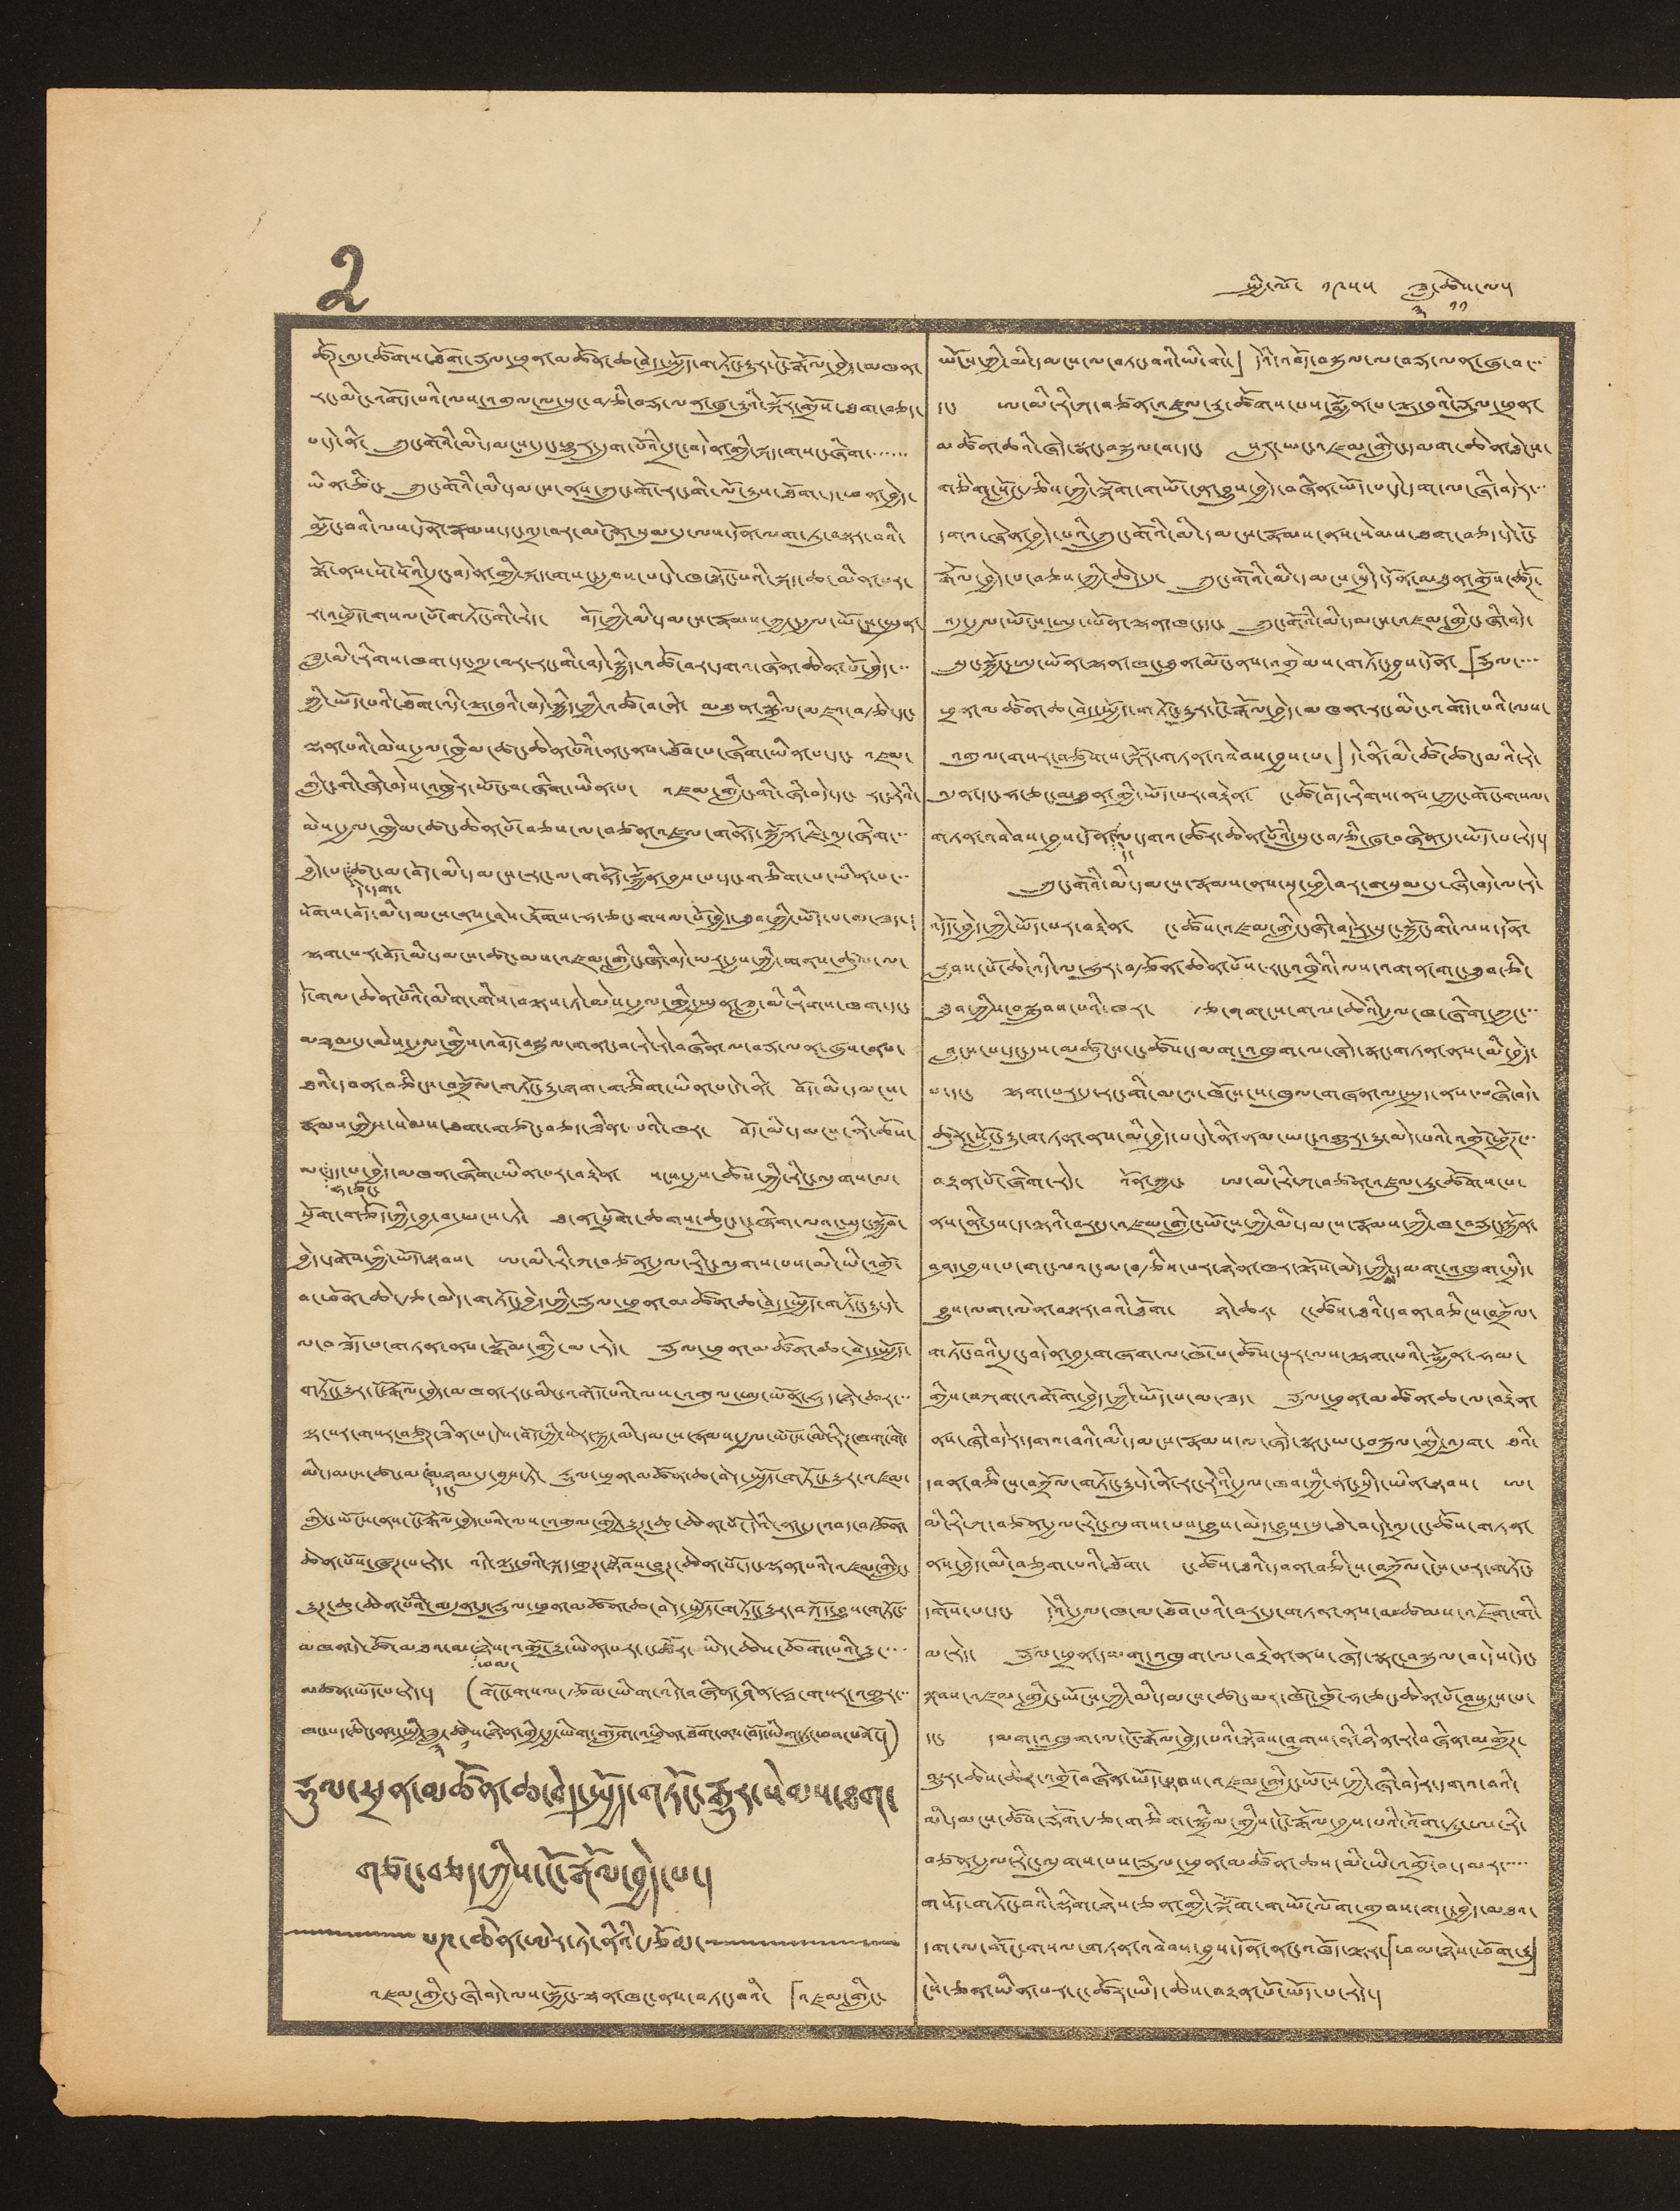2 སྤྱི་ལོ་ ༡༩༥༥ ཟླ་
༣
ཚེས་
༡༡
ལ་།
ཚོཊ་འདུ་ཚོགས་ཐོག་རྡུལ་ཕྲན་མཚོན་ཆ་བེད་སྤྱོད་གཏོང་རྒྱུར་ངོ་རྒོལ་བྱེད་མཁན་
རང་མིང་འགོད་པའི་ལས་འགུལ་ལ་སྲུང་བརྩི་བརྡ་ལན་ཞུ་རྒྱུའི་སྐོར་གྲོས་ཐག་བཅད་
པ་དེ་ནི་ ཀྲུང་གོའི་མི་དམངས་དུང་ཕྱུར་དྲུག་པོའི་དྲང་བདེན་གྱི་སྐད་གསང་ཞིག་་་་་་
ཡིན་ཅིང་ ཀྲུང་གོའི་མི་དམངས་ནས་ཀྲུང་གོ་རང་གི་ལོ་རྒྱུས་ཐོག་ད་ཕན་བྱེད་
མྱོང་བའི་ལས་དོན་རྣམས་དང་འདྲ་བར་མངོན་སུམ་དུ་ལས་དོན་ལག་ཏུ་བསྟར་བའི་
སྒོ་ནས་སོ་སོའི་དྲང་བདེན་གྱི་སྐད་གསང་རྒྱབས་པ་དེ་ཁ་སྟོང་པའི་སྐད་ཆ་མིན་པར་
ར་འཕྲོད་གསལ་པོ་གཏོང་གི་རེད་ བོད་ཀྱི་མི་དམངས་རྣམས་ཀྱང་རྒྱལ་ཡོངས་སྤུན་
ཟླ་མི་རིགས་ཁག་དང་འདྲ་བར་རང་གི་བདེ་སྐྱིད་འཚོ་བར་དགའ་ཞེན་ཆེན་པོ་བྱེད་་་
ཀྱི་ཡོད་པའི་ཐོག་འདི་ལྟ་བུའི་བདེ་སྐྱིད་ཀྱི་འཚོ་བ་ནི་ མཐུན་སྒྲིལ་མཛའ་བརྩེ་དང་
ལྡན་པའི་མེས་རྒྱལ་ཁྱིམ་ཚང་ཆེན་པོའི་ནང་ནས་ཐོབ་པ་ཞིག་ཡིན་པ་དང་ འཛམ་
གླིང་གི་ཞི་བདེས་འཁྱེར་ཡོང་བ་ཞིག་ཡིན་པ་ འཛམ་གླིང་གི་ཞི་བདེ་དང་ རང་རེའི་
མེས་རྒྱལ་ཁྱིམ་ཚང་ཆེན་པོ་བཅས་ལ་བཙན་འཛུལ་གནོད་སྐྱོན་ཇི་འདྲ་ཞིག་་་
བྱེད་པ་
དེ་དག་
ཚང་མ་བོད་མི་དམངས་རང་ལ་གནོད་སྐྱོན་བྱས་པ་དང་གཅིག་པ་ཡིན་པ་་་
སོགས་བོད་མི་དམངས་ནས་ཤེས་རྟོགས་ཧ་ཅང་གསལ་པོ་བྱེད་ཐུབ་ཀྱི་ཡོད་པ་མ་ཟད་།
ལྷག་པར་བོད་མི་དམངས་ཚང་མས་འཛམ་གླིང་ཞི་བདེ་ཡར་རྒྱས་ཀྱི་གནས་ཚུལ་ལ་
དོ་གལ་ཆེན་པོའི་མིག་གིས་བལྟས་ཏེ་མེས་རྒྱལ་གྱི་སྤུན་ཟླ་མི་རིགས་ཁག་དང་
མཉམ་དུ་མེས་རྒྱལ་གྱིས་འབོད་བསྐུལ་གནང་བ་རེ་རེ་བཞིན་ལ་བར་ལན་ཞུས་ནས་
ཐའི་དབན་བཅིངས་བཀྲོལ་གཏོང་རྒྱུ་ཉག་གཅིག་ཡིན་པ་དེ་ནི་ བོད་མི་དམངས་
རྣམས་ཀྱིས་སེམས་ཐག་གཙང་བཅད་ཟིན་པའི་ཁར་ བོད་མི་དམངས་ནི་ཆོས་
ལ་
ཧ་ཅང་
དད་པ་བྱེད་མཁན་ཞིག་ཡིན་པར་བརྟེན་ སངས་རྒྱས་ཆོས་ཀྱི་རིང་ལུགས་ལ་
སྲོག་གཅོད་ཀྱི་བྱ་བ་སྤངས་ཏེ་ ཐ་ན་སྲོག་ཆགས་ཆུང་ངུ་ཞིག་ལའང་སྲུང་སྐྱོབ་
བྱེད་དགོས་ཀྱི་ཡོད་སྟབས་ ཨ་མི་རི་ཀ་བཙན་རྒྱལ་རིང་ལུགས་པས་མི་ཡི་འགྲོ་
བ་ཕོན་ཆེ་རྩ་མེད་གཏོང་བྱེད་ཀྱི་རྡུལ་ཕྲན་མཚོན་ཆ་བེད་སྤྱོད་གཏོང་རྒྱུ་དེ་
ལ་བཟོད་པ་གཏན་ནས་སྒོམ་གྱི་མ་རེད་ རྡུལ་ཕྲན་མཚོན་ཆ་བེད་སྤྱོད་
གཏོང་རྒྱུར་ངོ་རྒོལ་བྱེད་མཁན་རང་མིང་འགོད་པའི་ལས་འགུལ་ཨུ་ཡོན་ཧུད་ཉེ་ཆར་་་
ལྷ་སར་གསར་བཙུཊ་ཟིན་པ་དེས་བོད་ཀྱི་སེར་སྐྱ་མི་དམངས་རྣམས་རྒྱལ་ཡོངས་མི་རིཊ་ཁག་གི་
མི་དམངས་ཚང་མ་
དང་
མཉམ་དུ་བྱས་ཏེ་ རྡུལ་ཕྲན་མཚོན་ཆ་བེད་སྤྱོད་གཏོང་རྒྱུར་འཛམ་
གླིང་ཡོངས་ནས་ངོ་རྒོལ་བྱེད་པའི་ལས་འགུལ་གྱི་རྒྱུཊ་ཆུ་ཆེན་པོ་དེའི་ནང་དུ་འབད་བརྩོན་
ཆེན་པོས་ཞུཊ་པ་རེད་ འདི་ལྟ་བུའི་སྐད་གྲཊ་སྟོབས་ཤུཊ་ཆེན་པོ་དང་ལྡན་པའི་འཛམ་གླིང་
རྒྱུཊ་ཆུ་ཆེན་པོའི་མདུན་དུ་རྡུལ་ཕྲན་མཚོན་ཆ་བེད་སྤྱོད་གཏོང་རྒྱུར་བཀོད་བྱུས་གཏོང་་
མཁན་དེ་ཚོ་མཐའ་མ་
ཕལ་
ཉེས་འགྲོ་རྒྱུ་ཡིན་པར་ང་ཚོར་ཡིད་ཆེས་ཆོག་པའི་རྒྱུ་་་་
མཚན་ཡོད་པ་རེད་། ་(གོང་གསལ་རྩོམ་ཡིག་འདི་བཞིན་ཤིན་ཧྭ་གསར་འགྱུར་་་
ཁང་པད་ཅིང་ནས་སྤྱི་ཟླ་
༣
ཚེས་
༡
ཉིན་གྱི་རྒྱ་ཡིག་གློག་འཕྲིན་ཐོག་ནས་བོད་ཡིག་ཏུ་ཕབ་པའོ་།)
རྡུལ་ཕྲན་མཚོན་ཆ་བེད་སྤྱོད་གཏོང་རྒྱུར་སེམས་ཐག་
གཙང་བཅད་ཀྱིས་ངོ་རྒོལ་བྱེད་པ་།
པཎ་ཆེན་ཨེར་ཏེ་ནིའི་རྩོམ་
འཛམ་གླིང་ཞི་བདེ་ལས་སྐྱོང་ལྷན་ཁང་ནས་བཏང་བའི་ 「འཛམ་གླིང་
ཡོངས་ཀྱི་མི་དམངས་ལ་བཏང་བའི་ཡི་གེ་」 དེའི་འབོད་བསྐུལ་ལ་བརྡ་ལན་ཞུ་བ་་་
དང་ ཨ་མི་རི་ཀ་བཙན་འཛུལ་རུ་ཚོགས་པས་སྨྱོན་པ་ལྟ་བུའི་རྡུལ་ཕྲན་
མཚོན་ཆའི་ཞེད་སྣང་བསྐུལ་བ་དང་ སླར་ཡང་འཛམ་གླིང་དམག་ཆེན་ཐེངས་
གཅིག་སློང་རྩིས་ཀྱི་ལྐོག་གཡོ་ངན་བྱུས་བྱེད་བཞིན་ཡོད་པ་དེ་དག་ལ་ཞི་བདེར་་་
དགའ་ཞེན་བྱེད་པའི་ཀྲུང་གོའི་མི་དམངས་རྣམས་ནས་སེམས་ཐག་བཅད་དེ་ངོ་
རྒོལ་བྱེད་པ་བཅས་ཀྱི་ཆེད་དུ་ ཀྲུང་གོའི་མི་དམངས་སྲིད་དོན་མཐུན་གྲོས་ཚོཊ་
འདུ་རྒྱལ་ཡོངས་ཨུ་ཡོན་ལྷན་ཁང་དང་ ཀྲུང་གོའི་མི་དམངས་འཛམ་གླིང་ཞི་བདེ་
སྲུང་སྐྱོང་ཨུ་ཡོན་ལྷན་ཁང་ཐུན་མོང་ནས་འགྲེམས་གཏོང་བྱས་དོན་ 「རྡུལ་་་་
ཕྲན་མཚོན་ཆ་བེད་སྤྱོད་གཏོང་རྒྱུར་ངོ་རྒོལ་བྱེད་མཁན་རང་མིང་འགོད་པའི་ལས་
འགུལ་གསར་བཙུགས་སྐོར་གཏན་འབེབས་བྱས་པ་」 དེ་ནི་མི་ཚོ་ཚང་མའི་རེ་
འདུན་དང་ཧ་ཅང་མཐུན་གྱི་ཡོད་པར་བརྟེན་ ང་ཚོ་བོད་རིགས་ནས་ཀྱང་གོང་གསལ་
གཏན་འབེབས་བྱས་དོན་
དེ་
ལ་དགའ་ཚོར་ཆེན་པོའི་སྲུང་བརྩི་ཞུ་བཞིན་དུ་ཡོད་པ་རེད་།
ཀྲུང་གོའི་མི་དམངས་རྣམས་ནས་སྔ་ཕྱི་བར་གསུམ་དུ་ཞི་བདེ་ལ་རེ་
འདོད་བྱེད་ཀྱི་ཡོད་པར་བརྟེན་ ང་ཚོས་འཛམ་གླིང་ཞི་བདེར་སྲུང་སྐྱོང་གི་ལས་དོན་
རླབས་པོ་ཆེ་འདི་ལ་ཧུར་བརྩོན་ཆེན་པོས་རང་འཁྲིའི་ལས་འགན་གང་ཐུབ་ཅི་
ཐུབ་ཀྱིས་བསྒྲུབས་པའི་ཁར་ རྩ་འགངས་གལ་ཆེའི་རྒྱལ་ཁ་ཞིག་ཀྱང་་་
བླངས་པ་དང་དུས་མཚུངས་ང་ཚོས་དམག་འཁྲུག་ལ་ཞེད་སྣང་གཏན་ནས་མི་བྱེད་
པ་དང་ ལྷག་པར་དུ་རང་གི་མངའ་ཁོངས་ས་ཁུལ་གཞན་ལ་སྤྲད་ནས་བཞི་བདེ་
ཚུར་སློང་རྒྱུ་གཏན་ནས་མི་བྱེད་པ་དེ་ནི་ནམ་ཡང་འགྱུར་རྒྱུ་མེད་པའི་འགྲོ་ཕྱོཊ་་
བརྟན་པོ་ཞིག་རེད་ འོན་ཀྱང་ ཨ་མི་རི་ཀ་བཙན་འཛུལ་རུ་ཚོགས་པ་
ནས་ནི་དུས་ད་ལྟའི་བར་དུ་འཛམ་གླིང་ཡོངས་ཀྱི་མི་དམངས་རྣམས་ཀྱི་ཁ་བརྡུང་སྐྱོན་
བཤད་བྱས་པ་གང་ལའང་མ་བརྩིས་པར་ཉེན་ཁར་ལྟོས་མེད་ཀྱི་
ས
དམག་འཁྲུག་སྲིད་
བྱུས་ལག་ལེན་བསྟར་བའི་ཐོག་ ཉེ་ཆར་ ང་ཚོས་ཐའི་དབན་བཅིངས་བཀྲོལ་
གཏོང་བའི་དྲང་བདེན་བྱ་གཞག་ལ་ཁོ་པ་ཚོས་སྔར་ལས་ལྷག་པའི་སྨྱོན་ཧམ་
གྱིས་བཀག་འགོག་བྱེད་ཀྱི་ཡོད་པ་མ་ཟད་ རྡུལ་ཕྲན་མཚོན་ཆ་ལ་བརྟེན་
ནས་ཞི་བདེར་དགའ་བའི་མི་དམངས་རྣམས་ལ་ཞེད་སྣང་ཡང་བསྐུལ་གྱི་འདུག་ ཐའི་
དབན་བཅིངས་བཀྲོལ་གཏོང་རྒྱུ་དེ་ནི་རང་རེའི་རྒྱལ་ཁབ་ཀྱི་ནང་སྲིད་ཡིན་སྟབས་ ཨ་
མི་རི་ཀ་བཙན་རྒྱལ་རིང་ལུགས་པས་བྱུས་མེད་བྱུས་སུ་ཐེ་བ་དེ་འདྲ་ང་ཚོས་གཏན་
ནས་བྱེད་མི་བཅུག་པའི་ཐོག་ ང་ཚོས་ཐའི་དབན་བཅིངས་བཀྲོལ་ངེས་པར་གཏོང་
དགོས་པ་དང་ དེའི་རྒྱལ་ཁ་མ་ཐོབ་པའི་བར་དུ་གཏན་ནས་མཚམས་འཇོག་གི་
མ་རེད་ རྡུལ་ཕྲན་དམག་འཁྲུག་ལ་བརྟེན་ནས་ཞེད་སྣང་བསྐུལ་བ་དེས་དེང་
སྐབས་འཛམ་གླིང་ཡོངས་ཀྱི་མི་དམངས་ཚང་མར་ཁོང་ཁྲོ་ཧ་ཅང་ཆེན་པོ་བསླངས་པ་
དང་ དམག་འཁྲུག་ལ་ངོ་རྒོལ་བྱེད་པའི་སྟོབས་ཤུགས་ནི་ཉིན་རེ་བཞིན་མགྱོཊ་
མྱུར་ཆེས་ཆེར་འགྲོ་བཞིན་ཡོད་སྟབས་འཛམ་གླིང་ཡོངས་ཀྱི་ཞི་བདེར་དགའ་བའི་
མི་དམངས་ཚོས་རྡོག་རྩ་གཅིག་སྒྲིལ་གྱིས་ངོ་རྒོལ་བྱས་པའི་འོག་ཏུ་ཨ་རི་
བཙན་རྒྱལ་རིང་ལུགས་པས་རྡུལ་ཕྲན་མཚོན་ཆས་མི་ཡི་འགྲོ་བ་དམར་་་་་
གསོད་གཏོང་བའི་སྡིག་ཉེས་ཅན་གྱི་ལྐོག་གཡོ་ལོག་གྲབས་གང་བྱེད་མཐའ་
དག་ལ་གོང་གསལ་གཏན་འབེབས་བྱས་དོན་ནང་འཁོད་ལྟར་「ཕམ་ཉེས་ཕོག་རྒྱུ་」
ངེས་ཅན་ཡིན་པར་ང་ཚོར་ཡིད་ཆེས་བརྟན་པོ་ཡོད་པ་རེད་།
